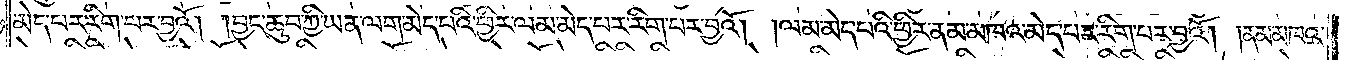མེད་པར་རིག་པར་བྱའོ། །བྱང་ཆུབ་ཀྱི་ཡན་ལག་མེད་པའི་ཕྱིར་ལམ་མེད་པར་རིག་པར་བྱའོ། །ལམ་མེད་པའི་ཕྱིར་ནམ་མཁའ་མེད་པར་རིག་པར་བྱའོ། །ནམ་མཁའ་
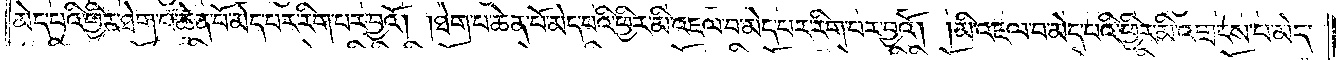མེད་པའི་ཕྱིར་ཐེག་པ་ཆེན་པོ་མེད་པར་རིག་པར་བྱའོ། །ཐེག་པ་ཆེན་པོ་མེད་པའི་ཕྱིར་མི་འཇལ་བ་མེད་པར་རིག་པར་བྱའོ། །མི་འཇལ་བ་མེད་པའི་ཕྱིར་མི་འགྲངས་པ་མེད་
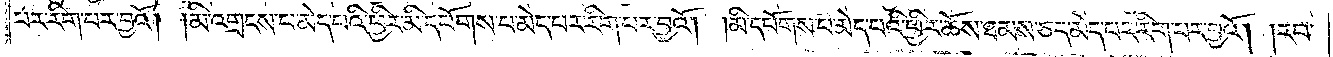པར་རིག་པར་བྱའོ། །མི་འགྲངས་པ་མེད་པའི་ཕྱིར་མི་དཔོགས་པ་མེད་པར་རིག་པར་བྱའོ། །མི་དཔོགས་པ་མེད་པའི་ཕྱིར་ཆོས་ཐམས་ཅད་མེད་པར་རིག་པར་བྱའོ། །རབ་
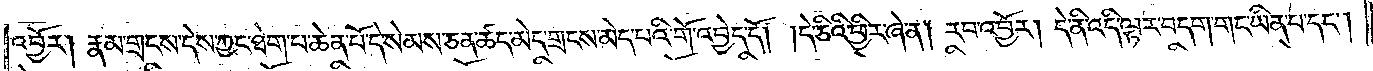འབྱོར། རྣམ་གྲངས་དེས་ཀྱང་ཐེག་པ་ཆེན་པོ་དེ་སེམས་ཅན་ཚད་མེད་གྲངས་མེད་པའི་གོ་འབྱེད་དོ། །དེ་ཅིའི་ཕྱིར་ཞེ་ན། རབ་འབྱོར། དེ་ནི་འདི་ལྟར་བདག་གང་ཡིན་པ་དང༌།
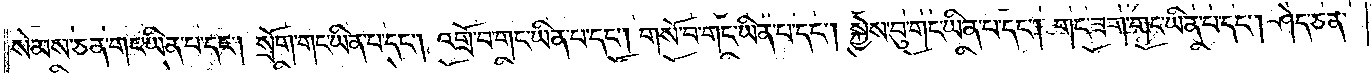སེམས་ཅན་གང་ཡིན་པ་དང༌། སྲོག་གང་ཡིན་པ་དང༌། འགྲོ་བ་གང་ཡིན་པ་དང༌། གསོ་བ་གང་ཡིན་པ་དང༌། སྐྱེས་བུ་གང་ཡིན་པ་དང༌། གང་ཟག་གང་ཡིན་པ་དང༌། ཤེད་ཅན་
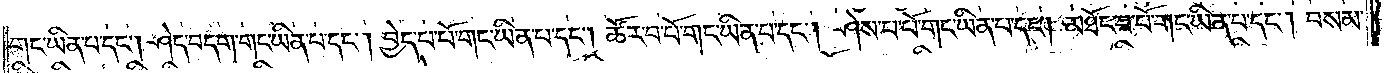གང་ཡིན་པ་དང༌། ཤེད་བདག་གང་ཡིན་པ་དང༌། བྱེད་པ་པོ་གང་ཡིན་པ་དང༌། ཚོར་བ་པོ་གང་ཡིན་པ་དང༌། ཤེས་པ་པོ་གང་ཡིན་པ་དང༌། མཐོང་བ་པོ་གང་ཡིན་པ་དང༌། བསམ་
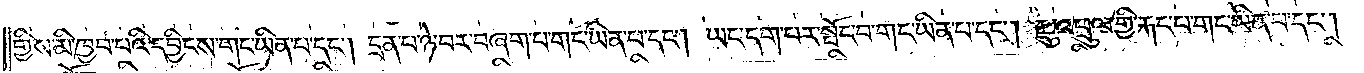གྱིས་མི་ཁྱབ་པའི་དབྱིངས་གང་ཡིན་པ་དང༌། དྲན་པ་ཉེ་བར་བཞག་པ་གང་ཡིན་པ་དང༌། ཡང་དག་པར་སྤོང་པ་གང་ཡིན་པ་དང༌། རྫུ་འཕྲུལ་གྱི་རྐང་པ་གང་ཡིན་པ་དང༌།
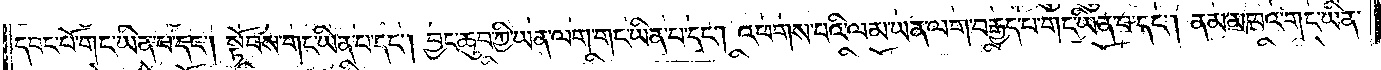དབང་པོ་གང་ཡིན་པ་དང༌། སྟོབས་གང་ཡིན་པ་དང༌། བྱང་ཆུབ་ཀྱི་ཡན་ལག་གང་ཡིན་པ་དང༌། འཕགས་པའི་ལམ་ཡན་ལག་བརྒྱད་པ་གང་ཡིན་པ་དང༌། ནམ་མཁའ་གང་ཡིན་
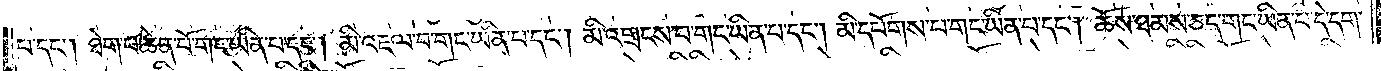པ་དང༌། ཐེག་པ་ཆེན་པོ་གང་ཡིན་པ་དང༌། མི་འཇལ་བ་གང་ཡིན་པ་དང༌། མི་འགྲངས་པ་གང་ཡིན་པ་དང༌། མི་དཔོགས་པ་གང་ཡིན་པ་དང༌། ཆོས་ཐམས་ཅད་གང་ཡིན་པ་དེ་དག་
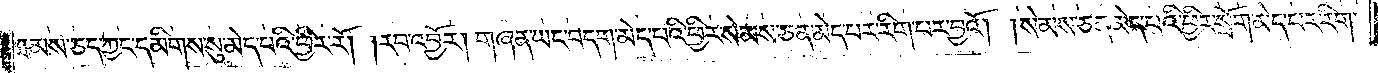ཐམས་ཅད་ཀྱང་དམིགས་སུ་མེད་པའི་ཕྱིར་རོ། །རབ་འབྱོར། གཞན་ཡང་བདག་མེད་པའི་ཕྱིར་སེམས་ཅན་མེད་པར་རིག་པར་བྱའོ། །སེམས་ཅན་མེད་པའི་ཕྱིར་སྲོག་མེད་པར་རིག་
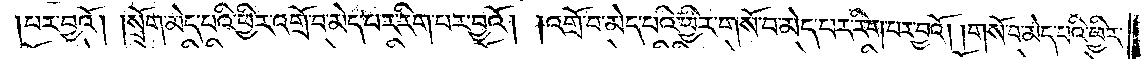པར་བྱའོ། །སྲོག་མེད་པའི་ཕྱིར་འགྲོ་བ་མེད་པར་རིག་པར་བྱའོ། །འགྲོ་བ་མེད་པའི་ཕྱིར་གསོ་བ་མེད་པར་རིག་པར་བྱའོ། །གསོ་བ་མེད་པའི་ཕྱིར་
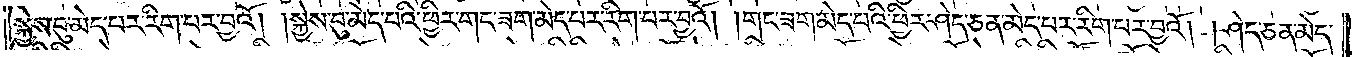སྐྱེས་བུ་མེད་པར་རིག་པར་བྱའོ། །སྐྱེས་བུ་མེད་པའི་ཕྱིར་གང་ཟག་མེད་པར་རིག་པར་བྱའོ། །གང་ཟག་མེད་པའི་ཕྱིར་ཤེད་ཅན་མེད་པར་རིག་པར་བྱའོ། །ཤེད་ཅན་མེད་
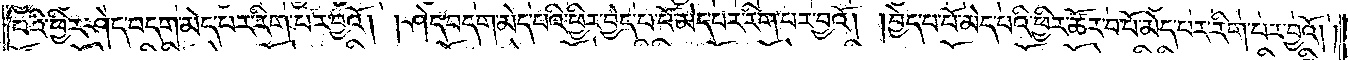པའི་ཕྱིར་ཤེད་བདག་མེད་པར་རིག་པར་བྱའོ། །ཤེད་བདག་མེད་པའི་ཕྱིར་བྱེད་པ་པོ་མེད་པར་རིག་པར་བྱའོ། །བྱེད་པ་པོ་མེད་པའི་ཕྱིར་ཚོར་བ་པོ་མེད་པར་རིག་པར་བྱའོ། །
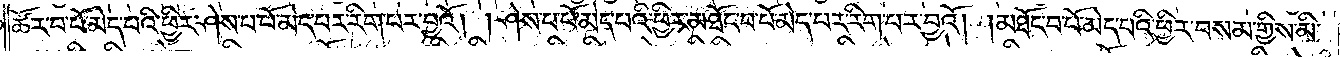ཚོར་བ་པོ་མེད་པའི་ཕྱིར་ཤེས་པ་པོ་མེད་པར་རིག་པར་བྱའོ། །ཤེས་པ་པོ་མེད་པའི་ཕྱིར་མཐོང་བ་པོ་མེད་པར་རིག་པར་བྱའོ། །མཐོང་བ་པོ་མེད་པའི་ཕྱིར་བསམ་གྱིས་མི་
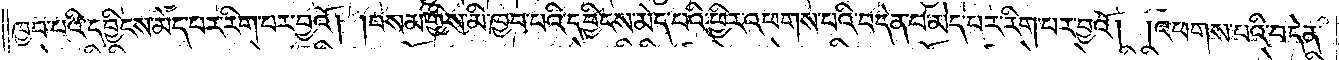ཁྱབ་པའི་དབྱིངས་མེད་པར་རིག་པར་བྱའོ། །བསམ་གྱིས་མི་ཁྱབ་པའི་དབྱིངས་མེད་པའི་ཕྱིར་འཕགས་པའི་བདེན་པ་མེད་པར་རིག་པར་བྱའོ། །འཕགས་པའི་བདེན་
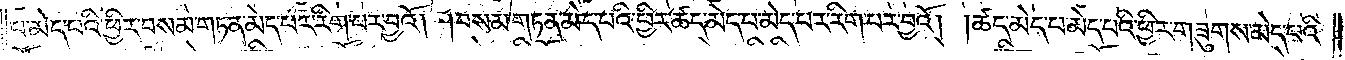པ་མེད་པའི་ཕྱིར་བསམ་གཏན་མེད་པར་རིག་པར་བྱའོ། །བསམ་གཏན་མེད་པའི་ཕྱིར་ཚད་མེད་པ་མེད་པར་རིག་པར་བྱའོ། །ཚད་མེད་པ་མེད་པའི་ཕྱིར་གཟུགས་མེད་པའི་
